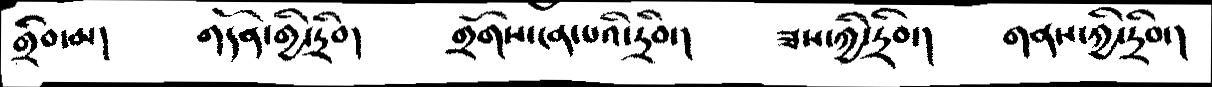གྲིབ་མ།   གདོན་གྱི་དྲིབ།   གྲོགས་ངན་པའི་དྲིབ་།    ཟས་ཀྱི་དྲིབ་།     གནས་ཀྱི་དྲིབ་།
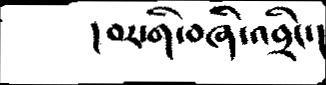།བར་གི་བཞི་འབྲིང་།
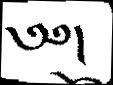༄༅།
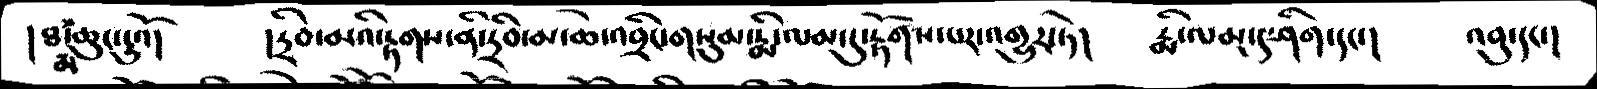།  ཐ་མ་ཆུང་ངུའོ།   །དྲིབ་མའི་རྟགས་ནི་དྲིབ་མ་ཆེ་འབྲིང་གསུམ་རྨི་ལམ་དུ་རྟོགས་པར་འགྱུར་ཏེ།   རྨི་ལམ་དུ་ཤིག་དང་།   འབུ་དང་།
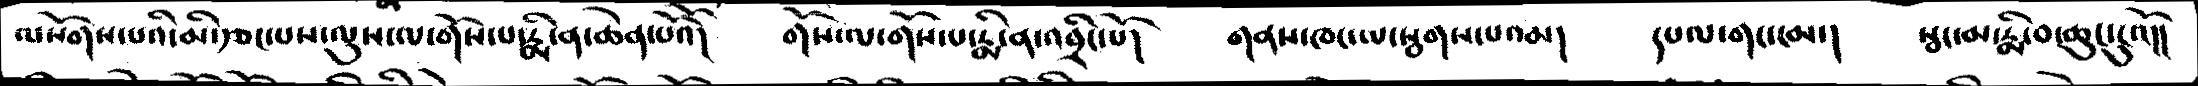ལསོགས་པའི་མི་རྩང་པས་ལུས་ལ་གོས་པ་རྨི་ན་ཆེན་པོའོ།   གོས་ལ་གོས་པ་རྨི་ན་འབྲིང་པོ།   གནས་ཁང་ལ་སྦགས་པའམ།  དཔལ་གང་ངམ་།    སྦང་མ་རྨི་བ་ཆུང་ངུའོ།།
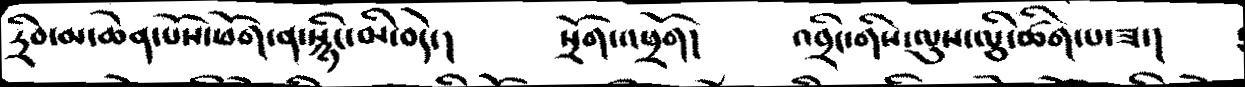དྲིབ་མ་ཆེན་པོས་ཕོག་ན་སྙིང་མི་བདེ་།    སྲོག་འཕྲོག།     འབྲིང་གིས་ལུས་ལྕི་ཚིག་པ་ཟ་།
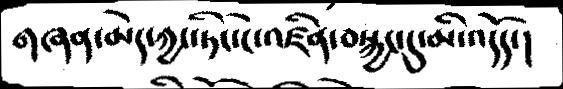གཞན་མེད་ཀྱང་ཏིང་ངེ་འཛིན་བསྐྱང་དུ་མི་འདོད་།
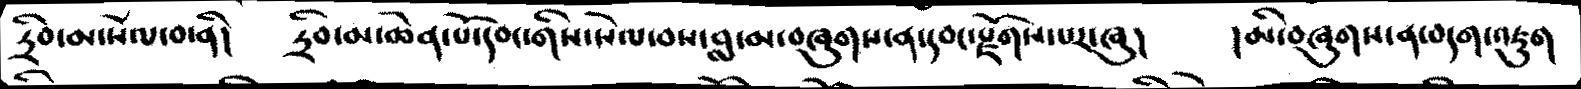དྲིབ་མ་སེལ་བ་ནི།   དྲིབ་མ་ཆེན་པོ་དབང་གིས་སེལ་བས་བླ་མ་བཞུགས་ན་དབང་རྫོགས་པར་ཞུ།   །མི་བཞུགས་ན་བདག་འཇུག
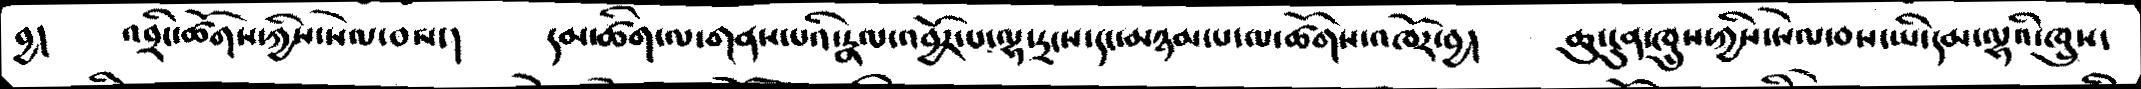བྱ།    འབྲི་ཚོགས་ཀྱིས་སེལ་བས་།    དམ་ཚིག་ལ་གནས་པའི་རྣལ་འབྱོར་པ་ལྷ་དྲངས་དང་མཉམ་པ་ལ་ཚོགས་འཁོར་བྱ།  ཆུང་ངུན་ཁྲུས་ཀྱིས་སེལ་བས་ཡི་དམ་ལྷའི་ཁྲུས་
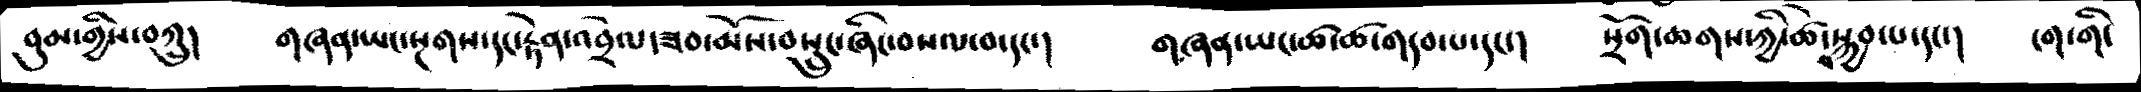བུམ་གྱིས་བཀྲུ།    གཞན་ཡང་སྔགས་དང་རྟེན་འབྲེལ་ཟབ་མོས་བསྲུང་ཞིང་བསལ་བ་དང་།   གཞན་ཡང་ཚ་ཚ་གདབ་པ་དང་།   སྲོག་ཆགས་ཀྱི་ཚེ་སྐྱབ་པ་དང་།  ངག་གི་
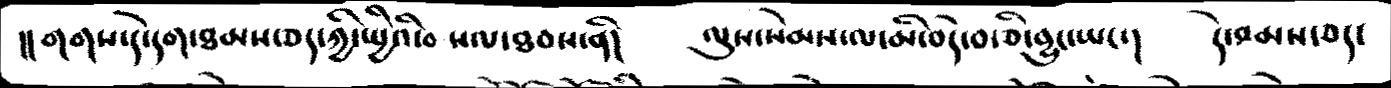།།གགས་དེ་དག་ཐམས་ཅད་ཀྱི་ཡྱིའི་བསལ་ཐབས་ནི།     ལུས་སེམས་ལ་མི་བདེ་བ་ཅི་བྱུང་ཡང་།    དེ་ཐམས་ཅད་
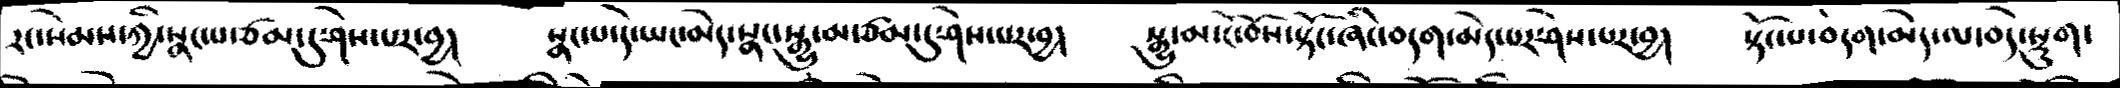རང་སེམས་ཀྱི་སྣང་ཙམ་དུ་ཤེས་པར་བྱ།   སྣང་པ་དེ་ཡང་མེད་སྣང་སྒྱུ་མ་ཙམ་དུ་ཤེས་པར།   སྒྱུ་མ་ངོ་བོས་སྟོང་ཞིང་བདག་མེད་པར་ཤེས་པར་བྱ།   སྟོང་པ་བདག་མེད་ལ་བདེ་སྡུག་
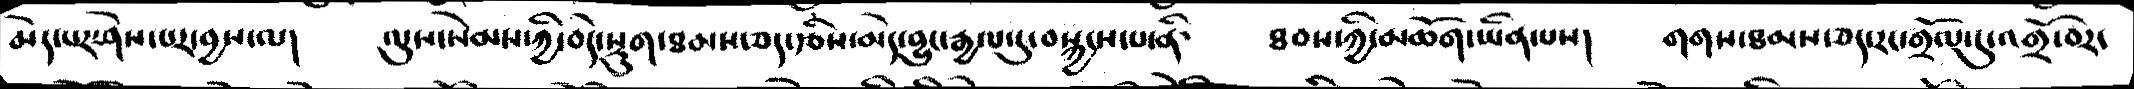མེད་པར་ཤེས་པར་བྱས་ལ།   ལུས་སེམས་ཀྱི་བདེ་སྡུག་ཐམས་ཅད་རྩིས་མེད་བྱུང་རྒྱལ་དུ་བསྐྱངས་པ་ནི་     ཐབས་ཀྱི་མཆོག་ཡིན་པས།   གགས་ཐམས་ཅད་རང་གྲོལ་དུ་འགྲོ་བར་
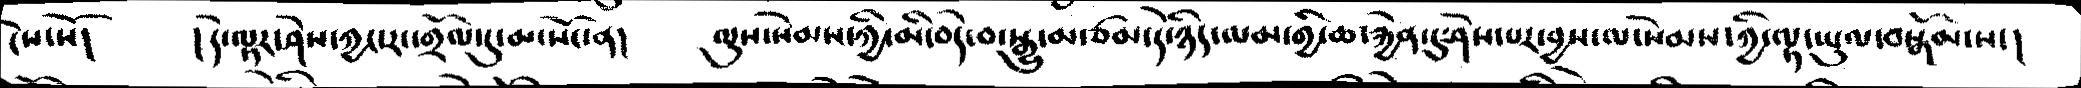ངེས་སོ།   ། དེ་ལྟར་ཤེས་ཀྱང་རང་གྲོལ་དུ་མ་སོང་ན།     ལུས་སེམས་ཀྱི་མི་བདེ་བ་སྒྱུ་མ་ཙམ་དེ་ཉིད་ལམ་གྱི་ཆ་རྐྱེན་དུ་ཤེས་པར་བྱས་ལ་སེམས་ཀྱི་ལྟ་ཡུལ་བསྒོམ་སང།
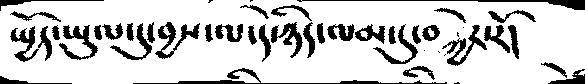ཡྱོད་ཡུལ་དུ་བྱས་ལ་དེ་ཉིད་ལམ་དུ་བསྐྱེར་རོ།
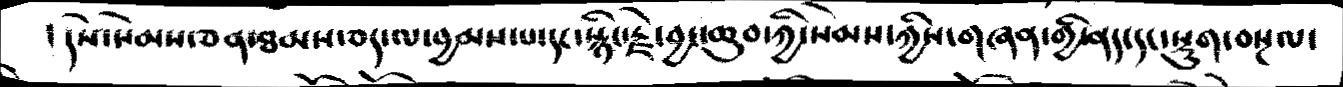། དེས་སེམས་ཅན་ཐམས་ཅད་ལ་བྱམས་པ་དང་སྙིང་རྗེ་བྱང་ཆུབ་ཀྱི་སེམས་ཀྱིས་གཞན་གྱི་ནད་དང་སྡུག་བསྔལ་
